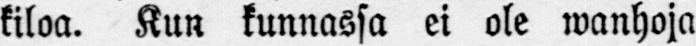kiloa. Kun kunnassa ei ole wanhoja
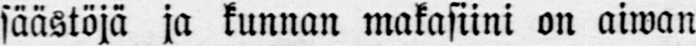säästöjä ja kunnan makasiini on aiwan
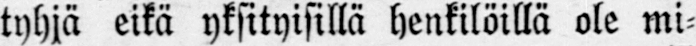tyhjä eikä yksityisillä henkilöillä ole mi-
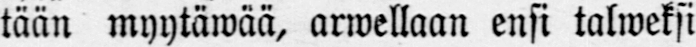tään myytäwää, arweliaan ensi talweksi
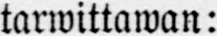tarwittawan:
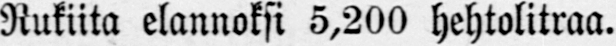Rukiita elannoksi 5,200 hehtolitraa.
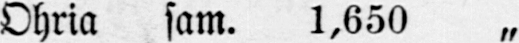Ohria sam. 1,650 „
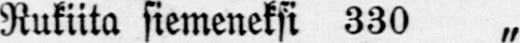Rukiita siemeneksi 330 „
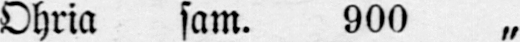Ohria sam. 900 „
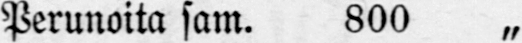Perunoita sam. 800 „
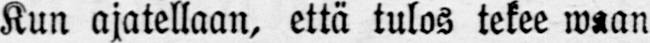Kun ajatellaan, että tulos tekee waan
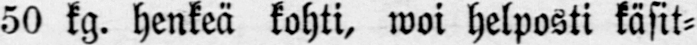50 kg. henkeä kohti, woi helposti käsit-
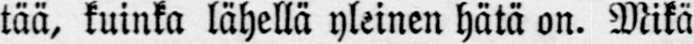tää, kuinka lähellä yleinen hätä on. Mitä
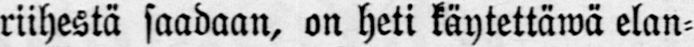riihestä saadaan, on heti käytettäwä elan-
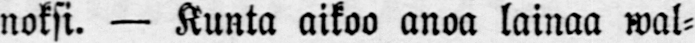noksi. — Kunta aikoo anoa lainaa wal-
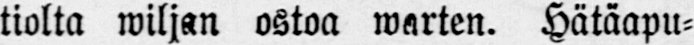tiolta wiljan ostoa warten. Hätäapu-
